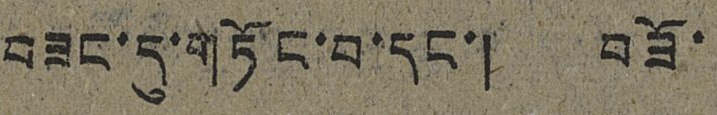བཟང་དུ་གཏོང་བ་དང་། བཟོ་
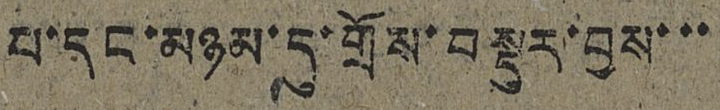པ་དང་མཉམ་དུ་གྲོས་བསྡུར་བྱས་་་
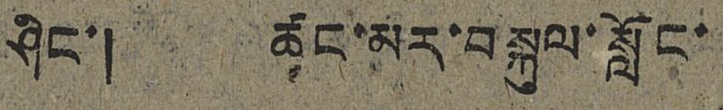ཤིང་། ཚང་མར་བསྐུལ་སློང་
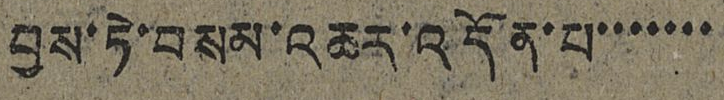བྱས་ཏེ་བསམ་འཆར་འདོན་པ་་་་་་་
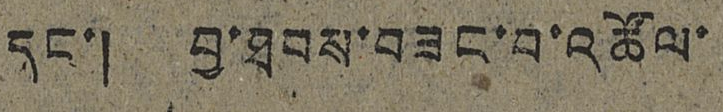དང་། བྱ་ཐབས་བཟང་བ་འཚོལ་
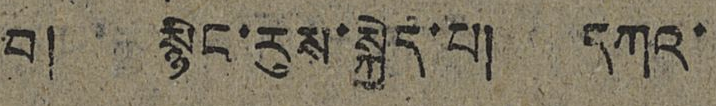བ། སྙིང་རུས་སྐྱེད་པ། དཀའ་
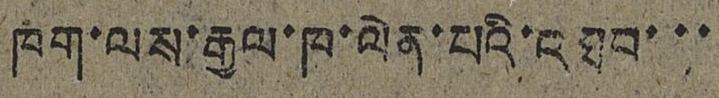ཁག་ལས་རྒྱལ་ཁ་ལེན་པའི་འཐབ་་་
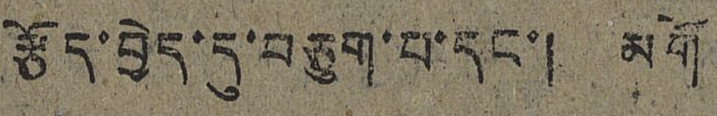རྩོད་བྱེད་དུ་བཅུག་པ་དང་། མགོ
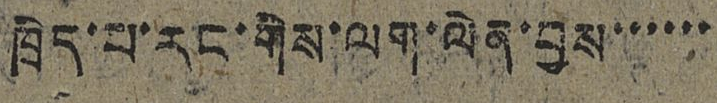ཁྲིད་པ་རང་གིས་ལག་ལེན་བྱས་་་་་་
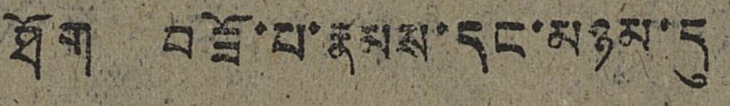ཐོག བཟོ་པ་རྣམས་དང་མཉམ་དུ
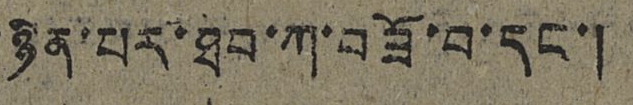ཉིན་པར་ཐབ་ཀ་བཟོ་བ་དང་།
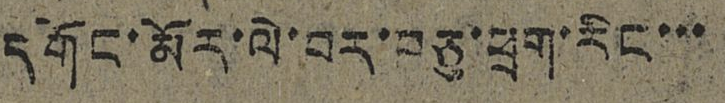དགོང་མོར་ལེ་བར་བཅུ་ཕྲག་རིང་་་
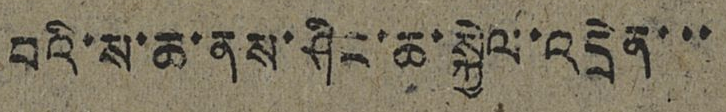བའི་ས་ཆ་ནས་ཤིང་ཆ་སྐྱེལ་འདྲེན་་་
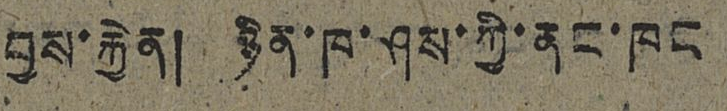བྱས་རྐྱེན། ཉིན་ཁ་ཤས་ཀྱི་ནང་ཁང
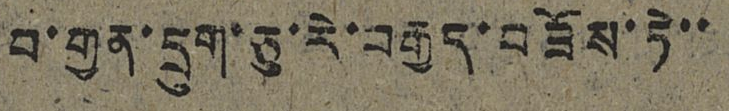བ་གྱན་དྲུག་ཅུ་རེ་བརྒྱད་བཟོས་ཏེ་་
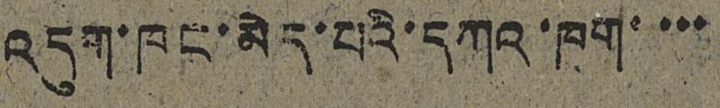འདུག་ཁང་མེད་པའི་དཀའ་ཁག་་་་
